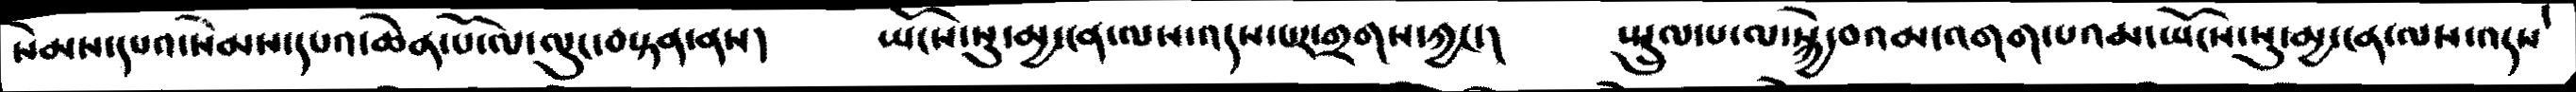སེམས་དཔའ་སེམས་དཔའ་ཆེན་པོ་ལ་ལུང་བསྟན་ནས།    ཡོངས་སུ་མྱ་ངན་ལས་འདས་པར་གྲགས་ཀྱང་།   སྤྲུལ་པ་ལ་སྐྱེ་བའམ་འགག་པའམ་ཡོངས་སུ་མྱ་ངན་ལས་འདས
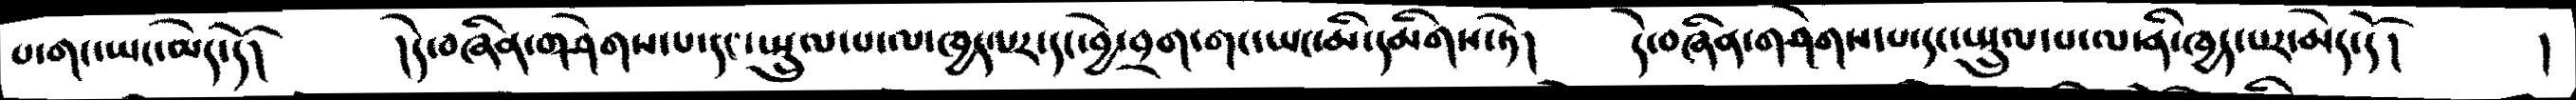པ་གང་ཡང་མེད་དོ།   །དེ་བཞིན་གཤེགས་པ་དང་སྤྲུལ་པ་ལ་ཁྱད་པར་དང་བྱེ་བྲག་གང་ཡང་མི་དམིགས་ཏེ།   དེ་བཞིན་གཤེགས་པ་དང་སྤྲུལ་པ་ལ་ནི་ཁྱད་པར་མེད་དོ།   །
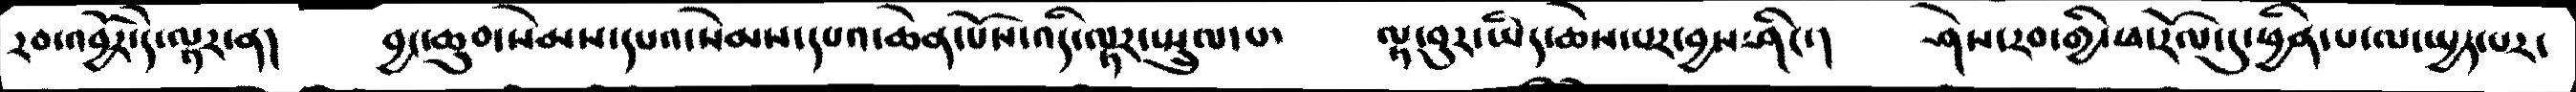རབ་འབྱོར་དེ་ལྟར་ན།    བྱང་ཆུབ་སེམས་དཔའ་སེམས་དཔའ་ཆེན་པོས་འདི་ལྟར་སྤྲུལ་པ་   ལྟ་བུར་ཡིད་ཆེས་པར་བྱས་ཤིང་།   ཤེས་རབ་གྱི་ཕ་རོལ་དུ་ཕྱིན་པ་ལ་སྤྱད་པར་
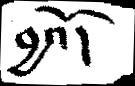བྱའོ།
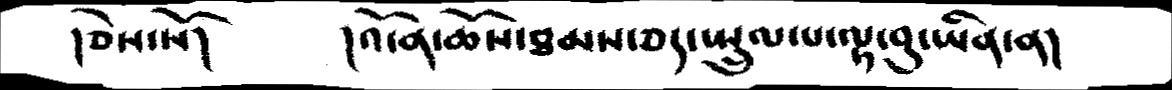།ཅེས་སོ།      །འོ་ན་ཆོས་ཐམས་ཅད་སྤྲུལ་པ་ལྟ་བུ་ཡིན་ན།
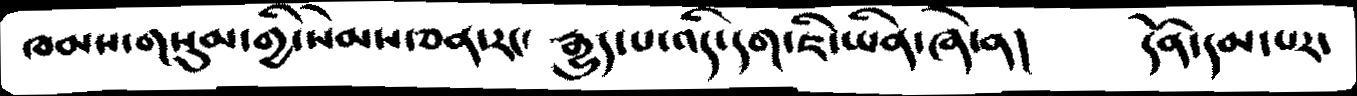ཁམས་གསུམ་གྱི་སེམས་ཅན་རང་རྒྱུད་པ་འདི་དག་ཇི་ཡིན་ཞེ།    དོན་དམ་པར་
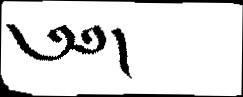༄༅།
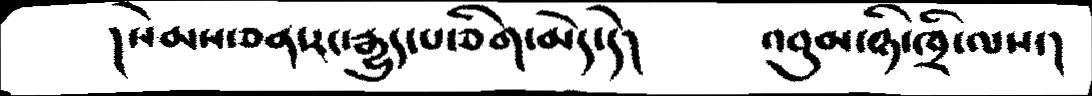།སེམས་ཅན་རང་རྒྱུད་པ་ཅིག་མེད་དེ།        འབུམ་ཉི་ཁྲི་ལས་།
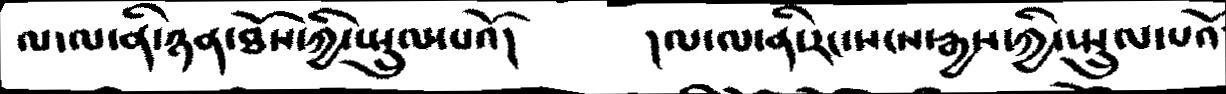ལ་ལ་ནི་ཉན་ཐོས་ཀྱི་སྤྲུལ་པའོ།          །ལ་ལ་ནི་རང་སངས་རྒྱས་ཀྱི་སྤྲུལ་པའོ
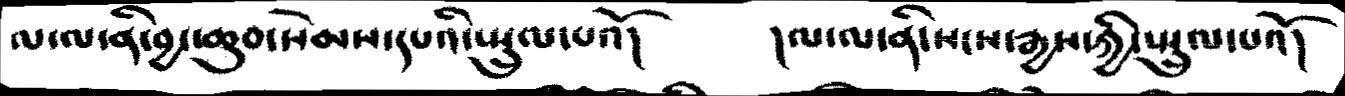ལ་ལ་ནི་བྱང་ཆུབ་སེམས་དཔའི་སྤྲུལ་པའོ།      །ལ་ལ་ནི་སངས་ཀྱི་སྤྲུལ་པའོ།
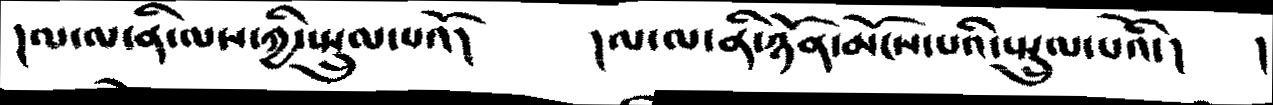།ལ་ལ་ནི་ལས་ཀྱི་སྤྲུལ་པའོ།               །ལ་ལ་ནི་ཉོན་མོངས་པའི་སྤྲུལ་པའི་།     །
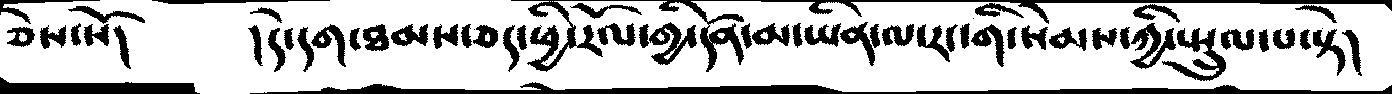ཅེས་སོ།        །དེ་དག་ཐམས་ཅད་ཕྱི་རོལ་གྱི་དོན་མ་ཡིན་ལ་རང་གི་སེམས་ཀྱི་སྤྲུལ་པ་སྟེ།
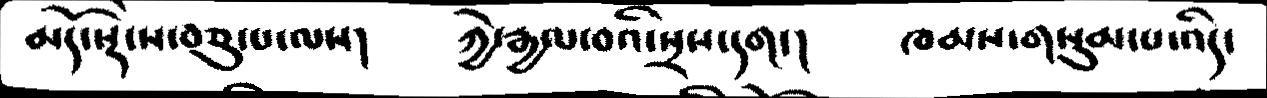མདོ་སྡེ་ས་བཅུ་པ་ལས།    ཀྱེ་རྒྱལ་བའི་སྲས་དག་།    ཁམས་གསུམ་པ་འདི་
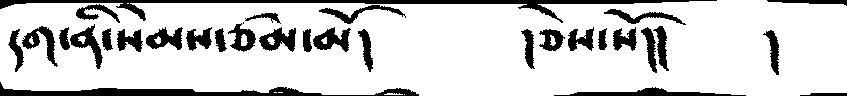དག་ནི་སེམས་ཙམ་མོ།         །ཅེས་སོ།།        །
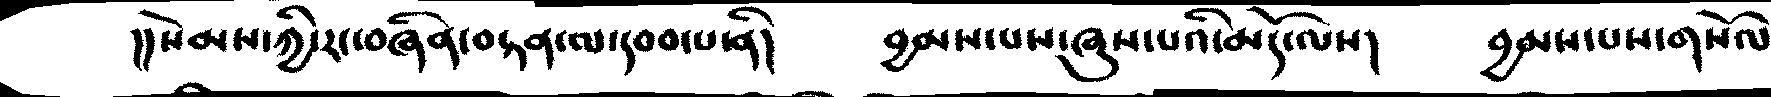།།སེམས་ཀྱི་རང་བཞིན་བསྟན་པ་དབབ་པ་ནི།      བྱམས་པས་ཞུས་པའི་མདོ་ལས།      བྱམས་པས་གསོལ
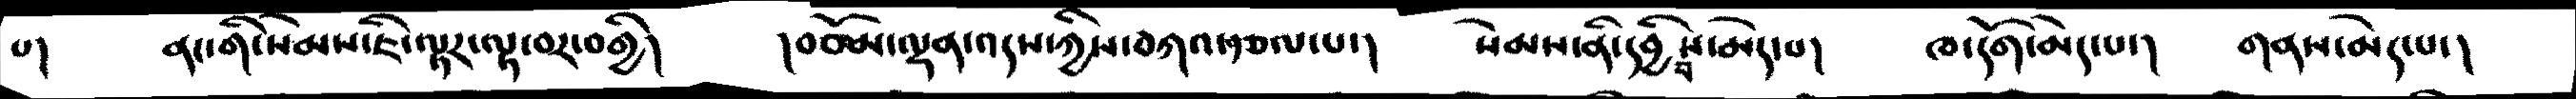པ།   ནང་གི་སེམས་ཇི་ལྟར་ལྟ་བར་བགྱི།     །བཅོམ་ལྡན་འདས་ཀྱིས་བཀའ་རྩལ་པ་།  སེམས་ནི་དབྱིབས་མེད་པ།  ཁ་དོག་མེད་པ་།   གནས་མེད་པ་།
